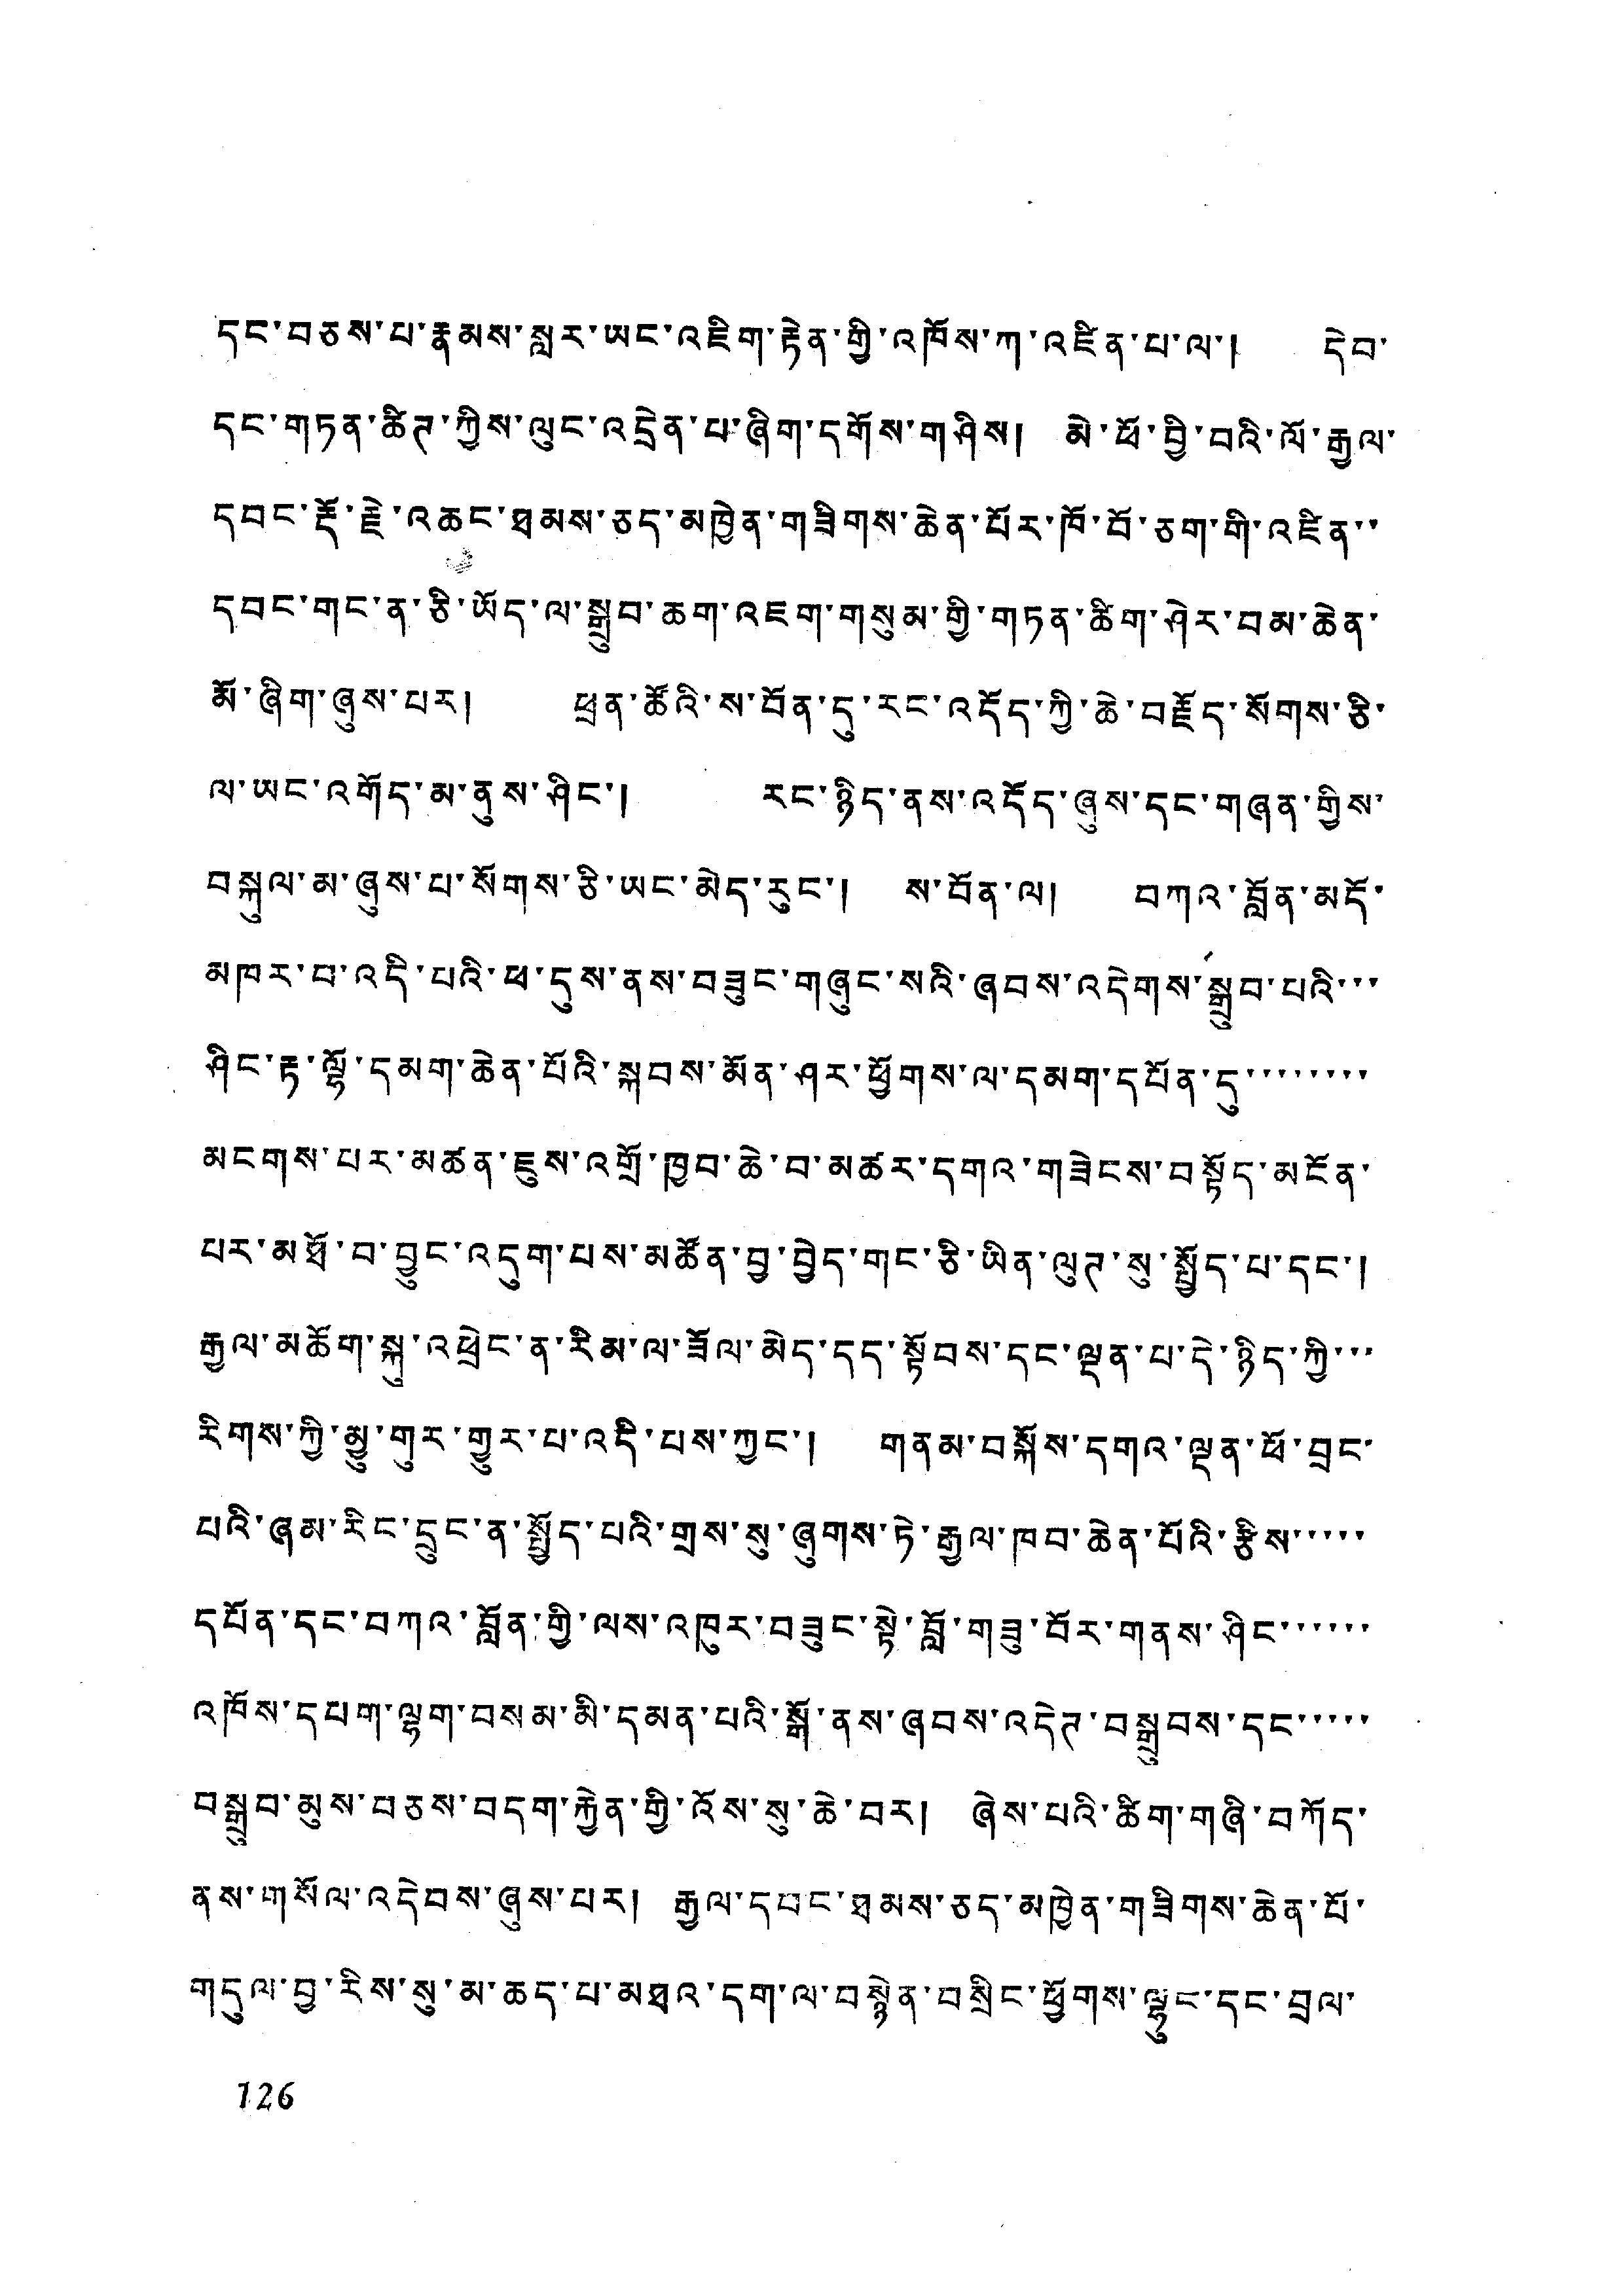དང་བཅས་པ་རྣམས་སླར་ཡང་འཇིག་རྟེན་གྱི་འཁོས་ཀ་འཛིན་པ་ལ་། དེབ་་
དང་གཏན་ཚིཊ་ཀྱིས་ལུང་འདྲེན་པ་ཞིག་དགོས་གཤིས་། མེ་ཕོ་བྱི་བའི་ལོ་རྒྱལ་
དབང་རྡོ་རྗེ་འཆང་ཐམས་ཅད་མཁྱེན་གཟིགས་ཆེན་པོར་ཁོ་བོ་ཅག་གི་འཛིན་་
དབང་གང་ན་ཅི་ཡོད་ལ་སྒྲུབ་ཆག་འཇག་གསུམ་གྱི་གཏན་ཚིག་ཤེར་བམ་ཆེན་
མོ་ཞིག་ཞུས་པར། ཕྲན་ཚོའི་ས་བོན་དུ་རང་འདོད་ཀྱི་ཆེ་བརྗོད་སོགས་ཅི་
ལ་ཡང་འགོད་མ་ནུས་ཤིང་། རང་ཉིད་ནས་འདོད་ཞུས་དང་གཞན་གྱིས་
བསྐུལ་མ་ཞུས་པ་སོགས་ཅི་ཡང་མེད་རུང་། ས་བོན་ལ། བཀའ་བློན་མདོ་
མཁར་བ་འདི་པའི་ཕ་དུས་ནས་བཟུང་གཞུང་སའི་ཞབས་འདེགས་སྒྲུབ་པའི་་་
ཤིང་རྟ་ལྷོ་དམག་ཆེན་པོའི་སྐབས་མོན་ཤར་ཕྱོགས་ལ་དམག་དཔོན་དུ་་་་་་་་
མངགས་པར་མཚན་ཇུས་འགྲོ་ཁྱབ་ཆེ་བ་མཚར་དགའ་གཟེངས་བསྟོད་མངོན་
པར་མཐོ་བ་བྱུང་འདུག་པས་མཚོན་བྱ་བྱེད་གང་ཅི་ཡིན་ལུཊ་སུ་སྤྱོད་པ་དང་།
རྒྱལ་མཆོག་སྐུ་འཕྲེང་ན་རིམ་ལ་ཟོལ་མེད་དང་སྟོབས་དང་ལྡན་པ་དེ་ཉིད་ཀྱི་་་
རིགས་ཀྱི་མྱུ་གུར་གྱུར་པ་འདི་པས་ཀྱང་། གནམ་བསྐོས་དགའ་ལྡན་ཕོ་བྲང་
པའི་ཞམ་རིང་དྲུང་ན་སྤྱོད་པའི་གྲས་སུ་ཞུགས་ཏེ་རྒྱལ་ཁབ་ཆེན་པོའི་རྩིས་་་་་
དཔོན་དང་བཀའ་བློན་གྱི་ལས་འཁུར་བཟུང་སྟེ་བློ་གཟུ་བོར་གནས་ཤིང་་་་་་
འཁོས་དཔག་ལྷག་བསམ་མི་དམན་པའི་སྒོ་ནས་ཞབས་འདེཊ་བསྒྲུབས་དང་་་་་
བསྒྲུབ་མུས་བཅས་བདག་རྐྱེན་གྱི་འོས་སུ་ཆེ་བར། ཞེས་པའི་ཚིག་གཞི་བཀོད་
ནས་གསོལ་འདེབས་ཞུས་པར། རྒྱལ་དཔང་ཐམས་ཅད་མཁྱེན་གཟིགས་ཆེན་པོ་
གདུལ་བྱ་རིས་སུ་མ་ཆད་པ་མཐའ་དག་ལ་བསྙེན་བསྲིང་ཕྱོགས་ལྷུང་དང་བྲལ་
126
